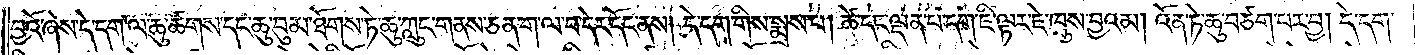བྱའོ་ཞེས་དེ་དག་ལ་ཆུ་ཚགས་དང་ཆུ་བུམ་ཐོགས་ཏེ་ཆུ་ཀླུང་གནས་ཅན་ག་ལ་བ་དེར་དོང་ནས། དེ་དག་གིས་སྨྲས་པ། ཚེ་དང་ལྡན་པ་དག་ཇི་ལྟར་ཇེ་ཁྲུས་བྱའམ། འོན་ཏེ་ཆུ་བཙག་པར་བྱ། དེ་དག་
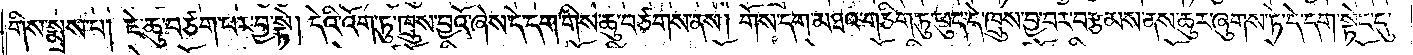གིས་སྨྲས་པ། ཇེ་ཆུ་བཙག་པར་བྱ་སྟེ། དེའི་འོག་ཏུ་ཁྲུས་བྱའོ་ཞེས་དེ་དག་གིས་ཆུ་བཙགས་ནས། གོས་དག་མཐའ་གཅིག་ཏུ་ཕུད་དེ་ཁྲུས་བྱ་བར་བརྩམས་ནས་ཆུར་ཞུགས་ཏེ་དེ་དག་སྟེང་དུ་
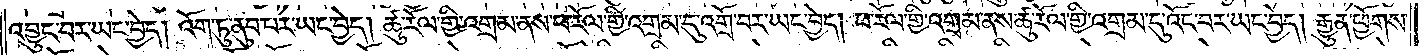འབྱུང་བར་ཡང་བྱེད། འོག་ཏུ་ནུབ་པར་ཡང་བྱེད། ཚུ་རོལ་གྱི་འགྲམ་ནས་ཕ་རོལ་གྱི་འགྲམ་དུ་འགྲོ་བར་ཡང་བྱེད། ཕ་རོལ་གྱི་འགྲམ་ནས་ཚུ་རོལ་གྱི་འགྲམ་དུ་འོང་བར་ཡང་བྱེད། རྒྱུན་ཕྱོགས་
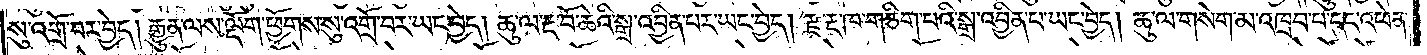སུ་འགྲོ་བར་བྱེད། རྒྱུན་ལས་ལྡོག་ཕྱོགས་སུ་འགྲོ་བར་ཡང་བྱེད། ཆུ་ལ་རྔ་བོ་ཆེའི་སྒྲ་འབྱིན་པར་ཡང་བྱེད། རྫ་རྔ་ཁ་གཅིག་པའི་སྒྲ་འབྱིན་པ་ཡང་བྱེད། ཆུ་ལ་གསེག་མ་འཁྲབ་པ་དང་འཕེན་
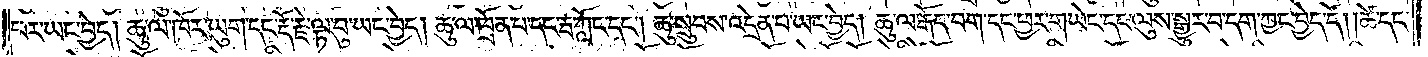པར་ཡང་བྱེད། ཆུ་ལ་ཁོར་ཡུག་དང་རྡོ་རྗེ་ལྟ་བུ་ཡང་བྱེད། ཆུ་ལ་ཁྲོན་པ་དང་རྦ་ཀློང་དང༌། ཆུ་སྲུབས་འདྲེན་པ་ཡང་བྱེད། ཆུ་ལ་རྒོད་བག་དང་ཕྱར་གཡེང་དང་ལུས་སྒྱུར་བ་དག་ཀྱང་བྱེད་དོ། །ཚེ་དང་
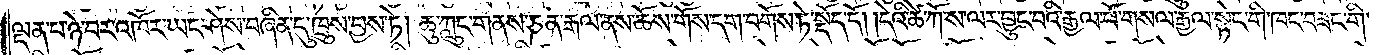ལྡན་པ་ཉེ་བར་འཁོར་ཡང་ཤེས་བཞིན་དུ་ཁྲུས་བྱས་ཏེ། ཆུ་ཀླུང་གནས་ཅན་རྒལ་ནས་ཆོས་གོས་དག་བགོས་ཏེ་སྡོད་དོ། །དེའི་ཚེ་ཀོ་ས་ལར་བྱུང་བའི་རྒྱལ་པོ་གསལ་རྒྱལ་སྟེང་གི་ཁང་བཟང་གི་
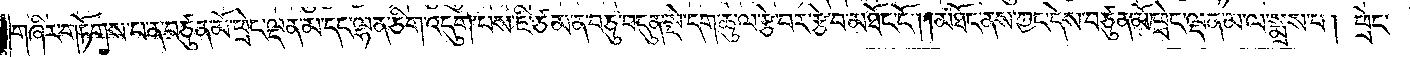གཞིར་གཏོགས་པ་ན་བཙུན་མོ་ཕྲེང་ལྡན་མ་དང་ལྷན་ཅིག་འདུག་པས་ཇི་ཙམ་ན་བཅུ་བདུན་སྡེ་དག་ཆུ་ལ་རྩེ་བར་རྩེ་བ་མཐོང་ངོ༌། །མཐོང་ནས་ཀྱང་དེས་བཙུན་མོ་ཕྲེང་ལྡན་མ་ལ་སྨྲས་པ། ཕྲེང་
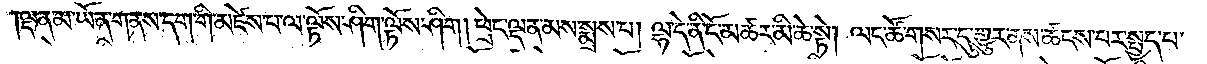ལྡན་མ་ཡོན་གནས་དག་གིས་མཛེས་པ་ལ་ལྟོས་ཤིག་ལྟོས་ཤིག །ཕྲེང་ལྡན་མས་སྨྲས་པ། ལྷ་དེ་ནི་ངོ་མཚར་མི་ཆེ་སྟེ། ལང་ཚོ་གསར་དུ་གྱུར་ནས་ཚངས་པར་སྤྱད་པ་
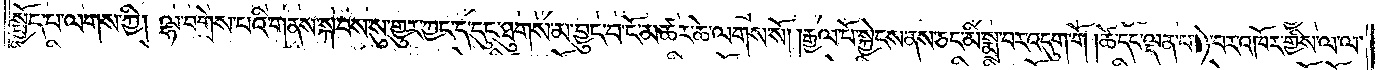སྤྱོད་པ་ལགས་ཀྱི། ལྷ་བགྲེས་པའི་གནས་སྐབས་སུ་གྱུར་ཀྱང་ད་དུང་ཐུགས་མ་བྱུང་བ་ངོ་མཚར་ཆེ་ལགས་སོ། །རྒྱལ་པོ་སྐྱེངས་ནས་ཅང་མི་སྨྲ་བར་འདུག་གོ །ཚེ་དང་ལྡན་པ་ཉེ་བར་འཁོར་གྱིས་ལ་ལ་
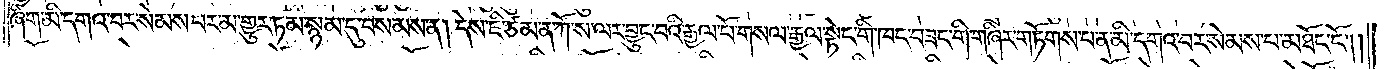ཞིག་མི་དགའ་བར་སེམས་པར་མ་གྱུར་ཏམ་སྙམ་དུ་བསམས་ན། དེས་ཇི་ཙམ་ན་ཀོ་ས་ལར་བྱུང་བའི་རྒྱལ་པོ་གསལ་རྒྱལ་སྟེང་གི་ཁང་བཟང་གི་གཞིར་གཏོགས་པ་ན་མི་དགའ་བར་སེམས་པ་མཐོང་ངོ༌། །
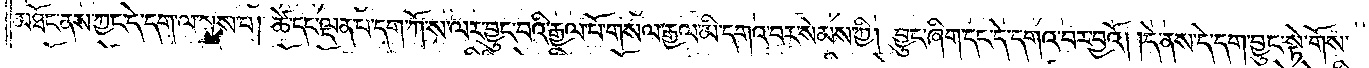མཐོང་ནས་ཀྱང་དེ་དག་ལ་སྨྲས་པ། ཚེ་དང་ལྡན་པ་དག་ཀོ་ས་ལར་བྱུང་བའི་རྒྱལ་པོ་གསལ་རྒྱལ་མི་དགའ་བར་སེམས་ཀྱི། བྱུང་ཞིག་དང་དེ་དགའ་བར་བྱའོ། །དེ་ནས་དེ་དག་བྱུང་སྟེ་གོས་
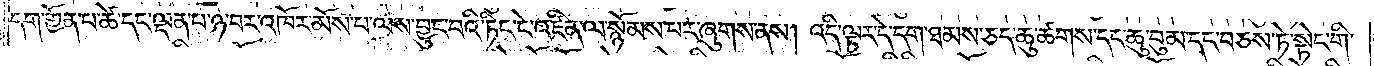དག་གྱོན་པ་ཚེ་དང་ལྡན་པ་ཉེ་བར་འཁོར་མོས་པ་ལས་བྱུང་བའི་ཏིང་ངེ་འཛིན་ལ་སྙོམས་པར་ཞུགས་ནས། འདི་ལྟར་དེ་དག་ཐམས་ཅད་ཆུ་ཚགས་དང་ཆུ་བུམ་དང་བཅས་ཏེ་སྟེང་གི་
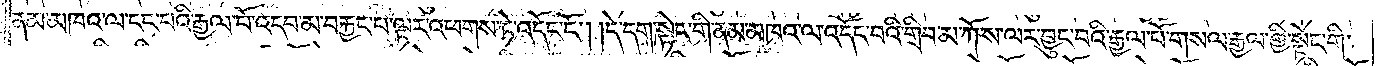ནམ་མཁའ་ལ་ངང་པའི་རྒྱལ་པོ་འདབ་མ་བརྐྱང་པ་ལྟར་འཕགས་ཏེ་འདོང་ངོ༌། །དེ་དག་སྟེང་གི་ནམ་མཁའ་ལ་འདོང་བའི་གྲིབ་མ་ཀོ་ས་ལར་བྱུང་བའི་རྒྱལ་པོ་གསལ་རྒྱལ་གྱི་སྟེང་གི་
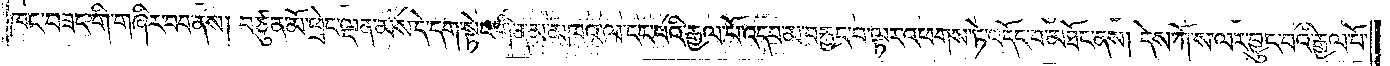ཁང་བཟང་གི་གཞིར་བབ་ནས། བཙུན་མོ་ཕྲེང་ལྡན་མས་དེ་དག་སྟེང་གི་ནམ་མཁའ་ལ་ངང་པའི་རྒྱལ་པོ་འདབ་མ་བརྐྱང་བ་ལྟར་འཕགས་ཏེ་འདོང་བ་མཐོང་ནས། དེས་ཀོ་ས་ལར་བྱུང་བའི་རྒྱལ་པོ་
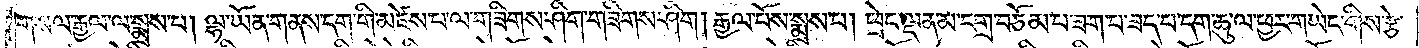གསལ་རྒྱལ་ལ་སྨྲས་པ། ལྷ་ཡོན་གནས་དག་གི་མཛེས་པ་ལ་གཟིགས་ཤིག་གཟིགས་ཤིག །རྒྱལ་པོས་སྨྲས་པ། ཕྲེང་ལྡན་མ་དགྲ་བཅོམ་པ་ཟག་པ་ཟད་པ་དག་ཆུ་ལ་ཕྱར་གཡེང་གིས་རྩེ་
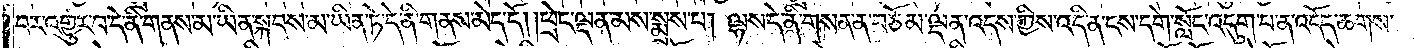བར་འགྱུར་བ་དེ་ནི་གནས་མ་ཡིན་སྐབས་མ་ཡིན་ཏེ་དེ་ནི་གནས་མེད་དོ། །ཕྲེང་ལྡན་མས་སྨྲས་པ། ལྷས་དེ་ནི་གསན་ན་བཅོམ་ལྡན་འདས་ཀྱིས་འདི་ན་ངས་དགེ་སློང་འདུག་པ་ན་འདོད་ཆགས་
